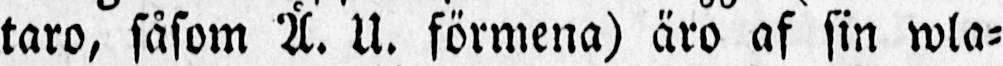taro, såsom Å. U. förmena) äro af sin wla-
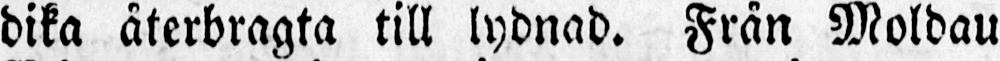dika återbragta till lydnad. Från Moldau
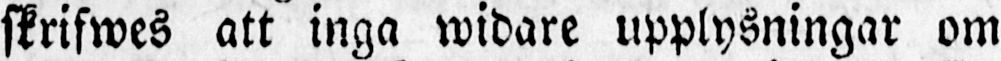skrifwes att inga widare upplysningar om
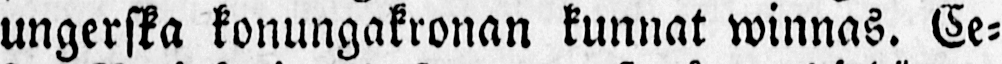ungerska konungakronan kunnat winnas. Ce-
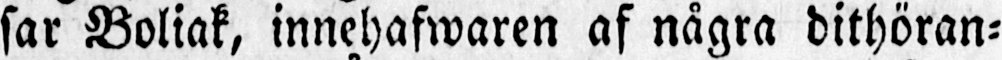sar Boliak, innehafwaren af några dithöran-
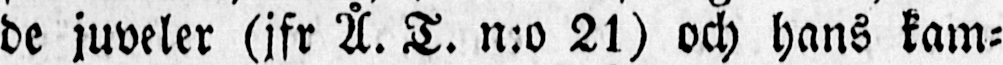de juveler (jfr Å. T. n:o 21) och hans kam-
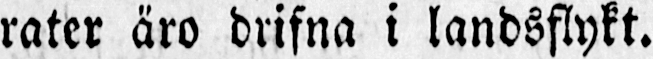rater äro drifna i landsflykt.
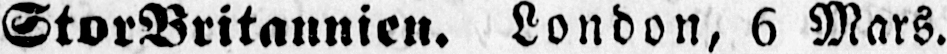StorBritannien. London, 6 Mars.
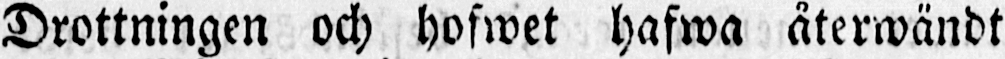Drottningen och hofwet hafwa återwändt
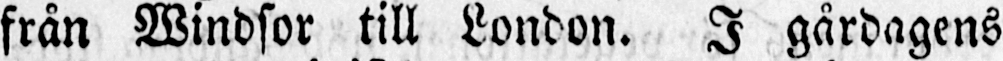från Windsor till London. I gårdagens
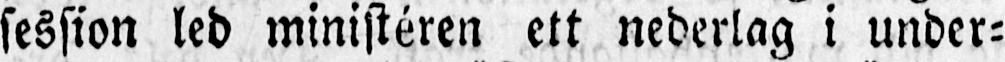session led ministéren ett nederlag i under-
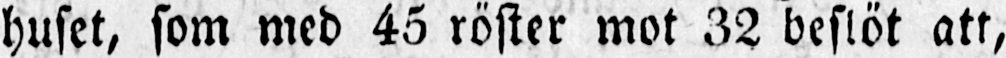huset, som med 45 röster mot 32 beslöt att,
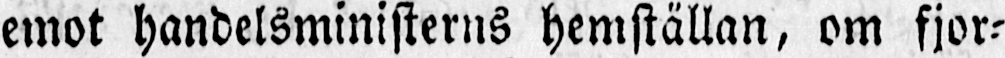emot handelsministerns hemställan, om fjor-
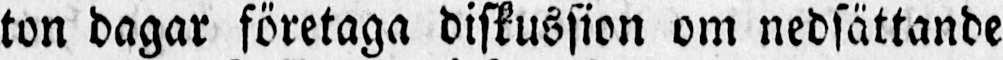ton dagar företaga diskussion om nedsättande
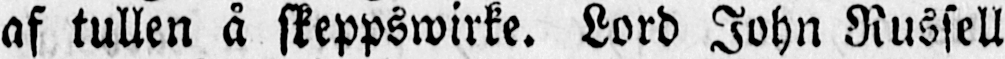af tullen å skeppswirke. Lord John Russell
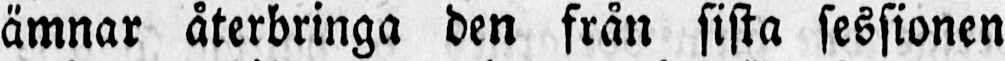ämnar återbringa den från sista sessionen
